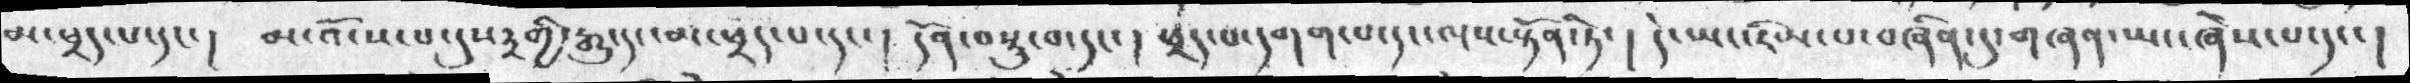མ་ཕྲད་པ་དང་།  མ་འོངས་པ་དུས༣གྱི་རྒྱུ་དང་མ་ཕྲད་པ་དང་།  དོན་བསྡུ་བ་དང་། ཕྲད་པ་དགག་པ་དང་ལྔས་སྟོན་ཏེ་། དེ་ཡང་རིམ་པ་བཞིན་དུ་གཞན་ཡང་ཞེས་པ་དང་།
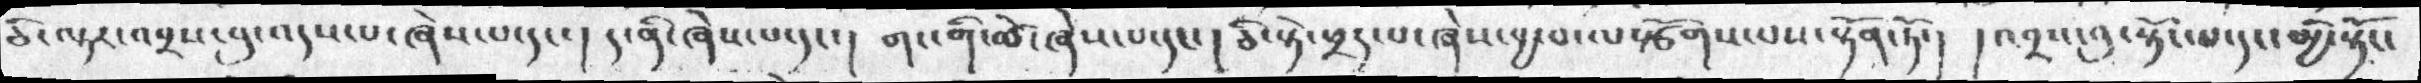ཅི་ལྟར་འབྲས་བུ་འདས་པ་ཞེས་པ་དང་། ད་ནི་ཞེས་པ་དང་། གང་གི་ཚེ་ཞེས་པ་དང་། ཅི་སྟེ་ཕྲད་པ་ཞེས་བྱ་བ་ལསྩོགས་པས་སྟོན་ཏོ་། །འབྲས་བུ་སྟོང་པ་དང་མྱི་སྟོང་
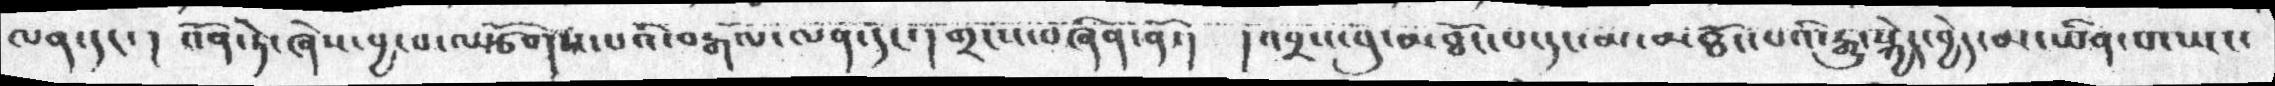ལན་དང་། འོན་ཏེ་ཞེས་བྱ་བ་ལསྩོགས་པའི་བརྒལ་ལན་དང་གྲངས་བཞཱིན་ནོ་།  །འབྲས་བུ་མཐོང་པ་དང་མ་མཐོང་པའི་རྒྱུ་སྐྱེད་བྱེད་མ་ཡིན་པ་ཡང་
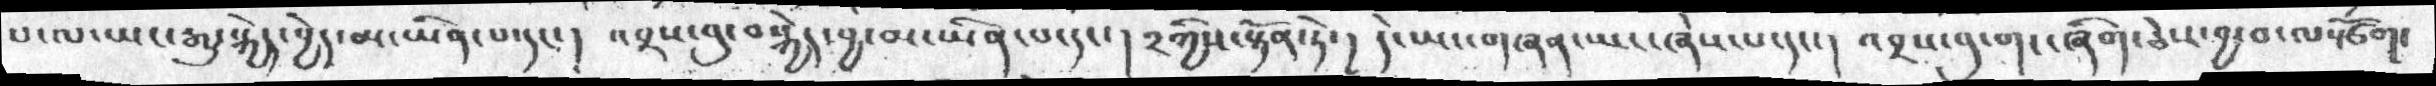པ་ལ་ཡང་རྒུ་སྐྱེད་བྱེད་མ་ཡིན་པ་དང་།  འབྲས་བུ་བསྐྱེད་བྱ་མ་ཡིན་པ་དང་།  ༢ཀྱིས་སྟོན་ཏེ་། དེ་ཡང་གཞན་ཡང་ཞེས་པ་དང་།  འབྲས་བུ་གང་ཞིག་ཅེས་བྱ་བ་ལསྩོག་
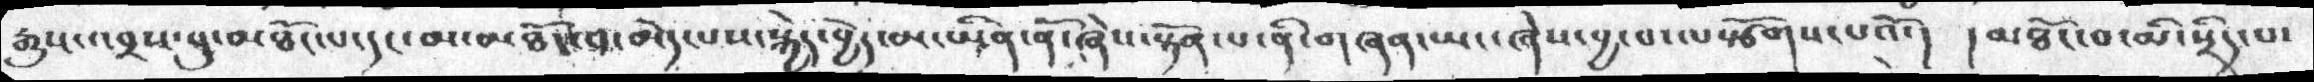རྒྱུས་འབྲས་བུ་མཐོང་པ་དང་མ་མཐོང་བ་མེད་པས་སྐྱེད་བྱེད་མ་ཡིན་ནོ་ཞེས་སྟོན་པ་ནི་གཞན་ཡང་ཞེས་བྱ་བ་ལསྩོགས་པའོ་།  ། མཐོང་བ་མི་སྲིད་པ་
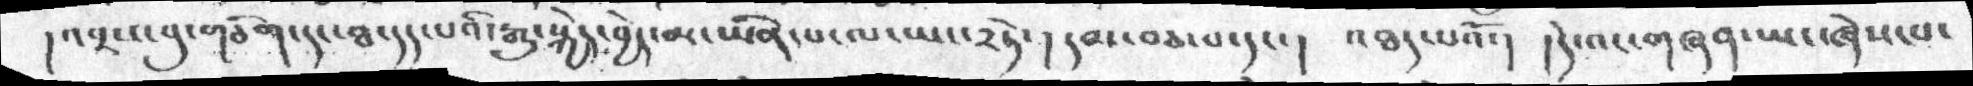། འབྲས་བུ་གཅིག་དང་ཐ་དད་པའི་རྒྱུ་སྐྱེད་བྱེད་མ་ཡིན་པ་ལ་ཡང་༢ཏེ་ ། དམ་བཅ་པ་དང་།  འཐད་པའོ་།  །དེ་འང་གཞན་ཡང་ཞེས་པ་
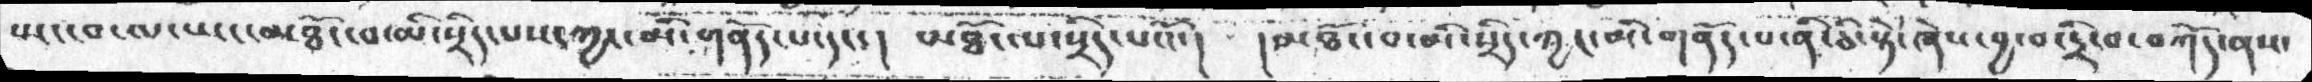སྤང་བ་ལ་ཡང་མཐོང་བ་མི་སྲིད་པས་ཀྱང་མི་གནོད་པ་དང་།  མཐོང་པ་སྲིད་པའོ་།  །མཐོང་བ་མི་སྲིད་ཀྱང་མི་གནོད་པ་ནི་ཅི་སྟེ་ཞེས་བྱ་བ་དྲི་བ་བཀོད་ནས་
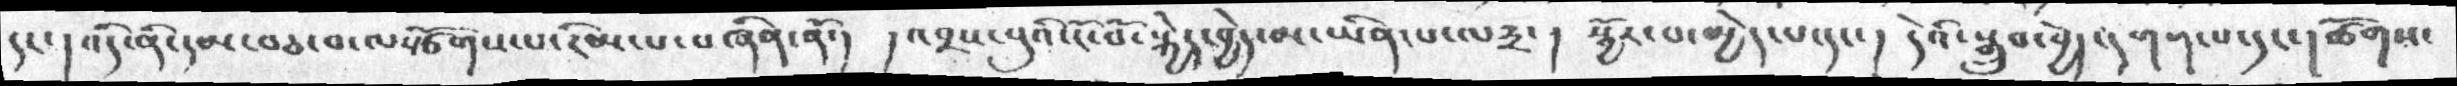དང་། འདི་ནི་དམ་བཅ་བ་ལསྩོགས་པ་རིམ་པ་བཞིན་ནོ་།  ། འབྲས་བུའི་ངོ་བོ་སྐྱེད་བྱེད་མ་ཡིན་པ་ལ༣་།  སྦྱོར་བ་མྱེད་པ་དང་།  དེའི་སྒྲུབ་བྱེད་དགག་པ་དང་། ཚོགས་
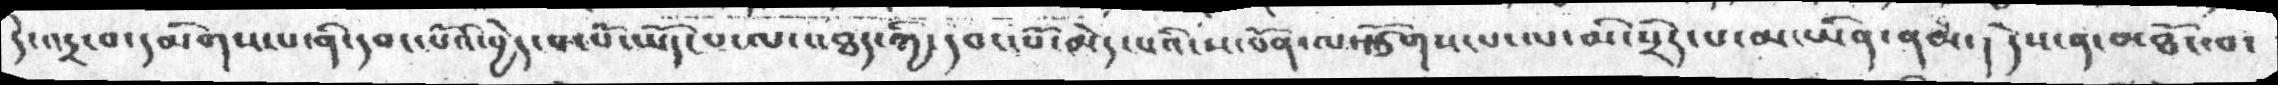དེ་འདྲ་བ་དམིགས་པ་ནི་དབང་པོའི་བྱེད་པ་པོ་ཡོད་པ་ལ་འཐད་ཀྱི་དབང་པོ་མེད་པའི་ས་བོན་ལསྩོགས་པ་ལ་མི་སྲིད་པ་མ་ཡིན་ནམ་།  དེས་ན་མཐོང་བ་
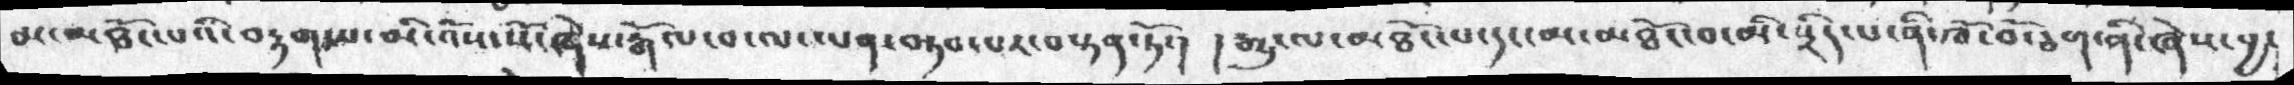མ་མཐོང་པའི་བརྟག་པ་མི་འོས་སོ་ཞེས་རྒོལ་བ་ལ་ལན་བཏབ་པར་བསྟན་ཏོ་།  །རྒྱུ་ལ་མཐོང་པ་དང་མ་མཐོང་བ་མི་སྲིད་པ་ནི་ཁོ་བོ་ཅག་ནི་ཞེས་བྱ་
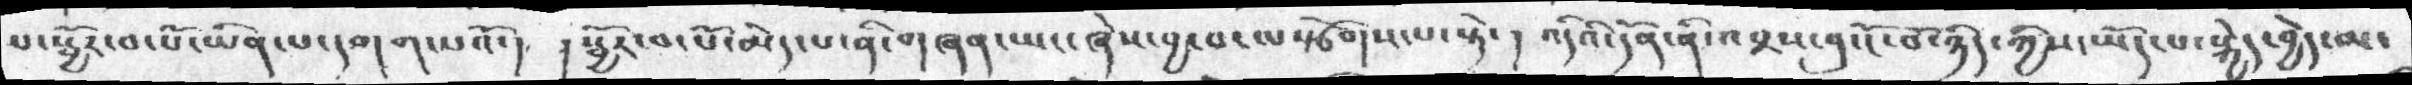པ་སྦྱོར་བ་པོ་ཡིན་པ་དགག་པའོ་།  ། སྦྱོར་བ་པོ་མེད་པ་ནི་གཞན་ཡང་ཞེས་བྱ་བ་ལསྩོགས་པ་སྟེ་།  འདིའི་དོན་ནི་འབྲས་བུ་ངོ་བོ་ཉིད་ཀྱིས་ཡོད་པ་སྐྱེད་བྱེད་མ་
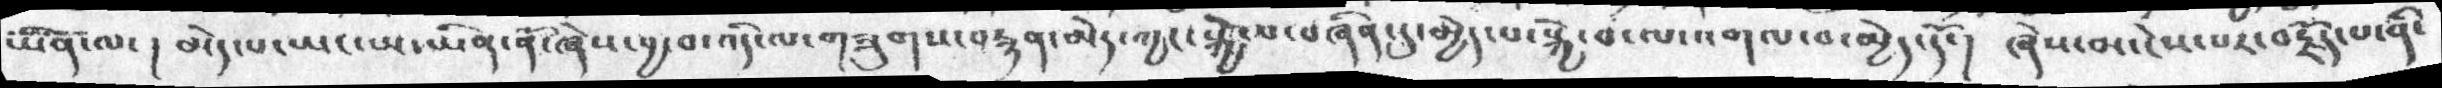ཡིན་ལ་ ། མེད་པ་ཡང་མ་ཡིན་ནོ་ཞེས་བྱ་བ་འདི་ལ་གཟུགས་བརྙན་མེད་ཀྱང་སྐྱེ་པ་བཞིན་དུ་མྱེད་པ་སྐྱེ་བ་ལ་འགལ་བ་མྱེད་དོ་།  ཞེས་མ་ངེས་པར་བརྗོད་པ་ནི་
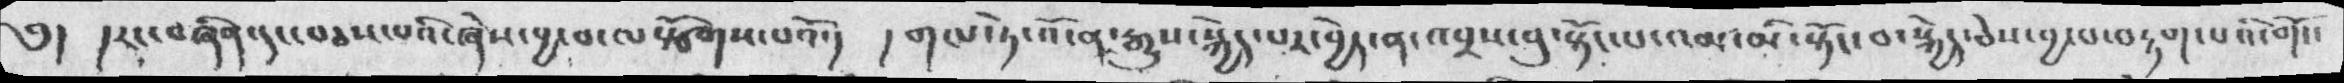༅།  །རང་བཞིན་དང་བཅས་པའི་ཞེས་བྱ་བ་ལསྩོགས་པའོ་།  །གལ་ཏེ་འོ་ན་རྒྱུས་སྐྱེད་པར་བྱེད་ན་འབྲས་བུ་སྟོང་པ་འམ་མི་སྟོང་བ་སྐྱེད་ཅེས་བྱ་བ་བརྟག་པའི་གོང་
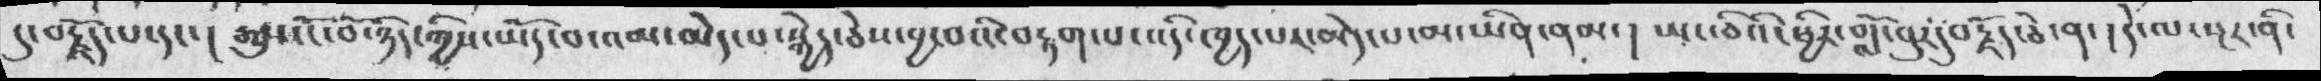དུ་བརྗོད་པདང་ ། རྒྱུས་ངོ་བོ་ཉིད་གྱིས་ཡོད་བ་འམ་མེད་པ་སྐྱེད་ཅེས་བའི་བརྟག་པ་འདི་ཁྱད་པར་མེད་པ་མ་ཡིན་ནམ་ ། ཡང་ཅིའི་ཕྱིར་གློ་བུར་དུ་བརྗོད་ཅེ་ན་ །དེ་ལ་སྔར་ནི་
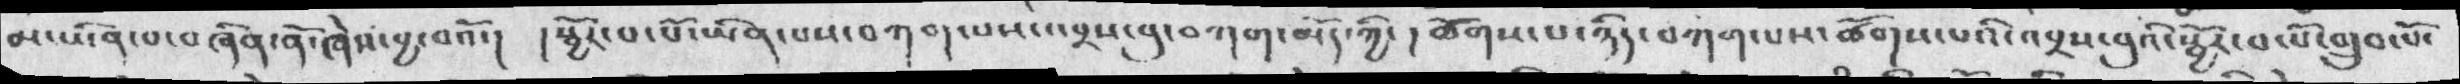མ་ཡིན་བ་བཞིན་ནོ་ཞེས་བྱ་བའོ་།   །སྦྱོར་བ་པོ་ཡིན་པས་བཀག་པས་འབྲས་བུ་བཀག་མོད་ཀྱི་  ། ཚོགས་པ་ཉིད་བཀག་པས་ཚོགས་པའི་འབྲས་བུའི་སྦྱོར་བ་པོ་གྲུབ་པོ་
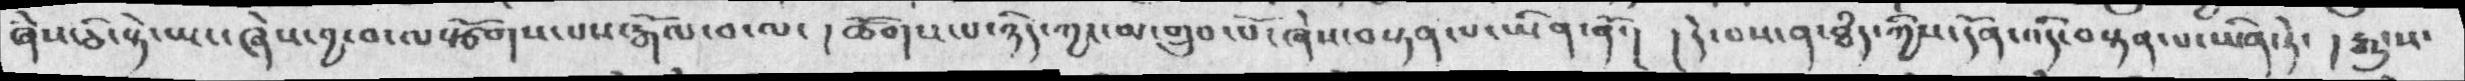ཞེས་ཅི་སྟེ་ཡང་ཞེས་བྱ་བ་ལསྩོགས་པས་རྒོལ་བ་ལ་། ཚོགས་པ་ཉིད་ཀྱང་མ་གྲུབ་པོ་ཞེས་བསྟན་པ་ཡིན་ནོ་། །དེ་བས་ན་ཐཾད་ཀྱིས་དོན་འདི་བསྟན་པ་ཡིན་ཏེ་ །རྒྱུ་ས་
